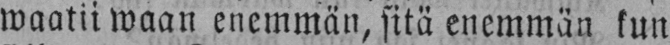waatii waan enemmän, sitä enemmän kun
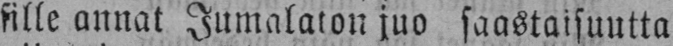sille annat Jumalaton juo saastaisuutta
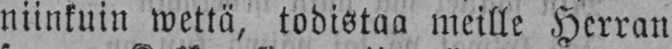niinkuin wettä, todistaa meille Herran
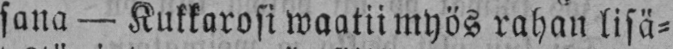sana — Kukkarosi waatii myös rahan lisä-
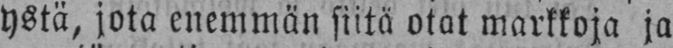ystä, jota enemmän siitä otat markkoja ja
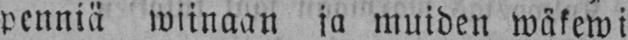penniä wiinaan ja muiden wäkewien
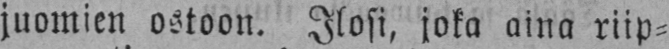juomien ostoon. Ilosi, joka aina riip-
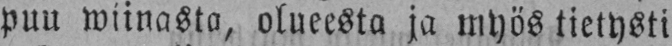puu wiinasta, olueesta ja myös tietysti
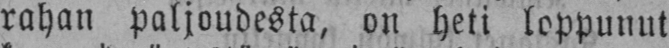rahan paljoudesta, on heti loppunut
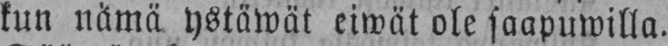kun nämä ystäwät eiwät ole saapuwilla.
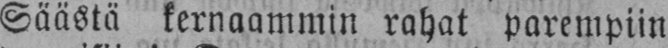Säästä kernaammin rahat parempiin
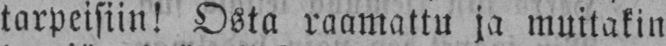tarpeisiin! Osta raamattu ja muitakin
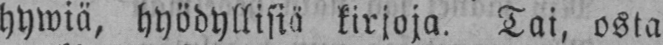hywiä, hyödyllisiä kirjoja. Tai, osta
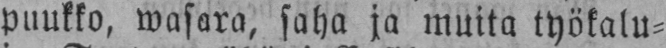puukko, wasara, saha ja muita työkalu-
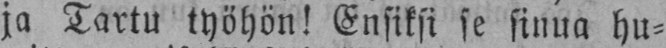ja Tartu työhön! Ensiksi se sinua hu-
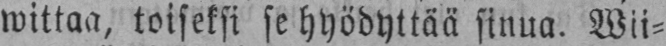wittaa, toiseksi se hyödyttää sinua. Wii-
